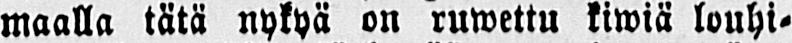maalla tätä nykyä on ruwettu kiwiä louhi-
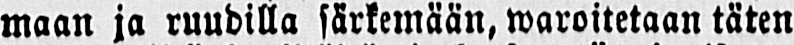maan ja ruudilla särkemään, waroitetaan täten
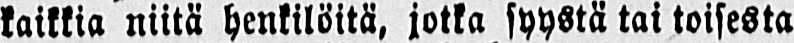kaikkia niitä henkilöitä, jotka syystä tai toisesta
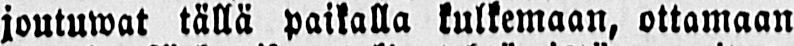joutuwat tällä paikalla kulkemaan, ottamaan
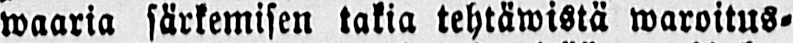waaria särkemisen takia tehtäwistä waroitus-
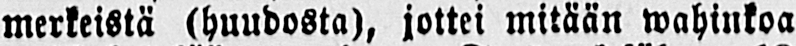merkeistä (huudosta), jottei mitään wahinkoa
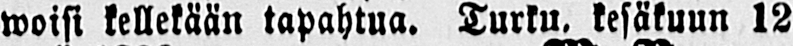woisi kellekään tapahtua. Turku, kesäkuun 12
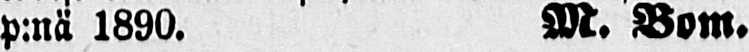p:nä 1890. M. Bom.
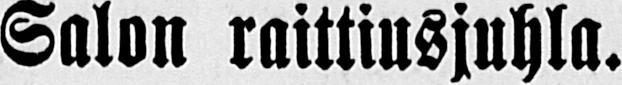Salon raittiusjuhla.
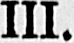III.
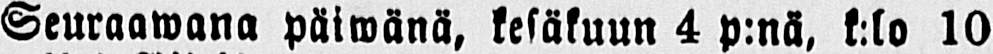Seuraawana päiwänä, kesäkuun 4 p:nä. k:lo 10
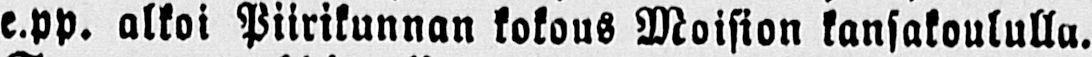e.pp. alkoi Piirikunnan kokous Moision kansakoululla.
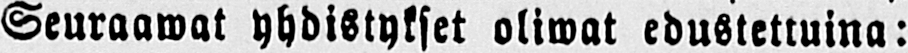Seuraawat yhdistykset oliwat edustettuina:
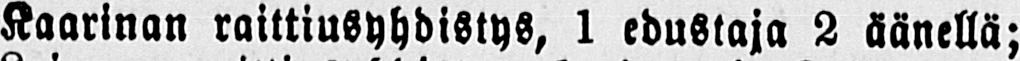Kaarinan raittiusyhdistys, 1 edustaja 2 äänellä;
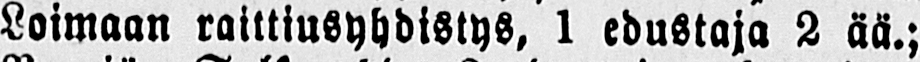Loimaan raittiusyhdistys, 1 edustaja 2 ää.;
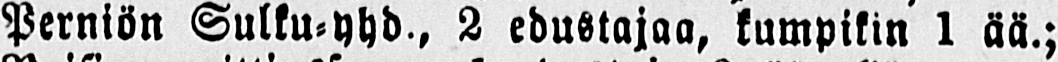Perniön Sulku-yhd., 2 edustajaa, kumpikin 1 ää.;
